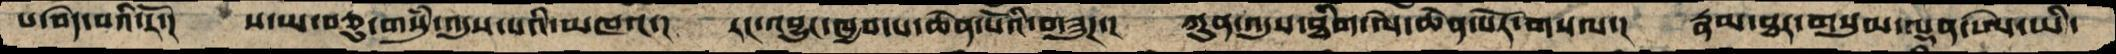པ་བདེ་བའི་རོ་།  ས་ཡ་བཅུ་གསུཾ་འདུས་པའི་མཁའ་།  རང་འབྱུང་ཁྱབ་པ་ཆེན་པོའི་གཟུཌ་།  ཀུན་འདུས་ཐིག་ལེ་ཆེན་པོར་གསལ་།  རྣམ་ཐར་གསུམ་ལྡན་ཨེ་ཡི་
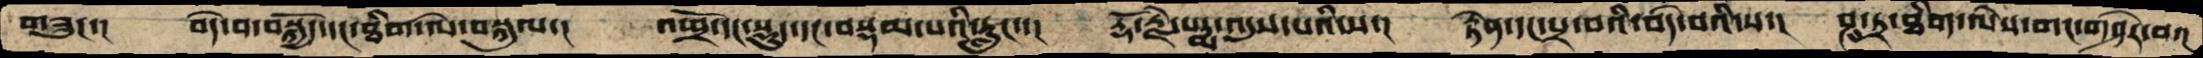གཟུང་།  བདེ་བ་བསྐྱོད་དང་ཐིག་ལེ་བསྐུལ་།  འཕྲོ་དང་སྡུད་དང་བསྡམ་པའི་རླུང་།  རྡོ་རྗེ་པདྨ་འདུས་པའི་ས་།  རྟེན་དང་པྲ་བའི་བདེ་བའི་ས་།  ཤུ་ཏྲ་ཐིག་ལེས་གང་གཤེར་བ་།
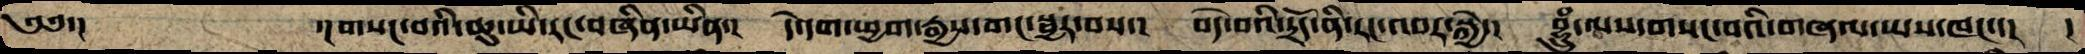༄༅་།          ་།གསང་བའི་ཆུ་ཡི་རང་བཞིན་ཡིན་།  དེ་དག་ཕྱག་རྒྱས་གང་སྦྱར་བས་།  བདེ་བའི་དྲོད་ནི་རབ་འབར་སྐྱེ་།  བྷྲུཾ་ལས་གསང་བའི་གཞལ་ཡས་ཁང་་།  །
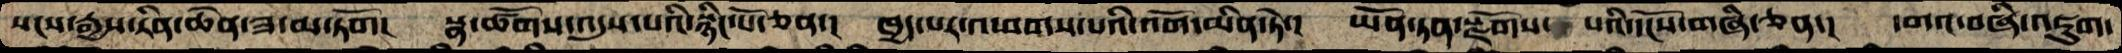སངས་རྒྱས་རིན་ཆེན་ཟ་མ་ཏོག།  སྣ་ཚོགས་འདུས་པའི་སྙིང་པོ་ཅན་།  ཁྱད་པར་འཕགས་པའི་འོག་མིན་ཏེ་།  ཡོན་ཏན་སྫོགས་ པའི་དངོས་གཞི་ཅན་།  དགའ་བཞི་འཇུག་
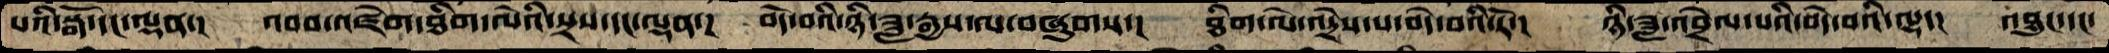པའི་སྒོ་དང་ལྡན་།  འབབ་འཛེག་ཐིག་ལེའི་སྲས་དང་ལྡན་།  བདེ་བའི་ཉི་ཟླ་རྒྱས་ལ་བཞུགས་།  ཐིག་ལེ་འདྲེས་པ་བདེ་བའི་རོ་།  ཉི་ཟླ་འབྲེལ་པའི་བདེ་བའི་ལྷ་།  འབྱུང་དང་
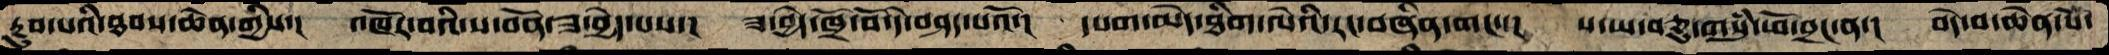རྔུབ་པའི་ཐབས་ཆེན་གྱིས་།  འཁོར་བའི་ས་བོན་ཟ་བྱེད་པས་།  ཟ་བྱེད་ཁྲོ་བོ་དེ་བཤད་པའོ་།  དཔག་མེད་ཐིག་ལེའི་རང་བཞིན་གང་་།  ས་ཡ་བཅུ་གསུཾ་ཕོ་བྲང་ན་།  བདེ་བ་ཆེན་པོ་
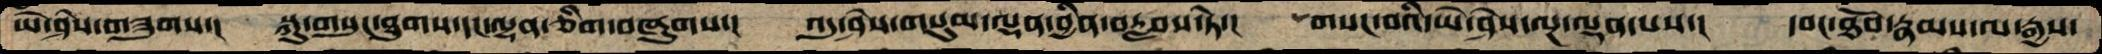ཡེ་ཤེས་གཟུགས་།  སྐུ་གསུང་ཐུགས་དང་ལྷན་ཅིག་བཞུགས་།  འདུ་ཤེས་གསུམ་ལྡན་བྱིན་བརླབས་ཏེ་།  གསང་བའི་ཡེ་ཤེས་ལྔ་ལྡན་པས་།  དབང་ཐོབ་རྣམས་ལ་རྒྱས་
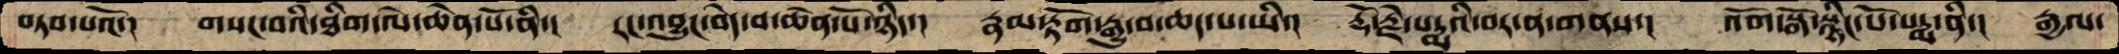བཏབ་པའོ་།  གསང་བའི་ཐིག་ལེ་ཆེན་པོ་ནི་།  རང་འབྱུང་བདེ་བ་ཆེན་པོ་ཉིད་།  རྣམ་རྟོག་རྒྱུ་བ་ཆད་པ་ཡི་།  རྡོ་རྗེ་པདྨའི་བར་ན་གནས་།  འོག་སྒོ་སྙིང་པོ་པདྨ་ནི་།  རྒྱལ་
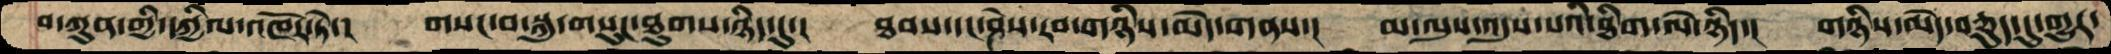བ་ཀུན་གྱི་དཀྱིལ་འཁོར་ཏེ་།  གསང་བ་སྐུ་གསུང་ཐུགས་ཉིད་དུ་། ཐབས་དང་ཤེས་རབ་གཉིས་མེད་གནས་།  མ་ལུས་འདུས་པའི་ཐིག་ལེ་ཉིད་།   གཉིས་མེད་བཅུད་དུ་གྱུར་
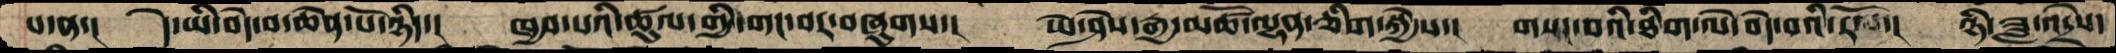པ་ན་།  དེ་ཡི་བདེ་བ་ཆེན་པོ་ཉིད་།  ཁྱབ་པའི་ཚུལ་གྱི་གང་བར་བཞུགས་།  ཡེ་ཤེས་རྒྱ་མཚོ་ལྷན་ཅིག་སྐྱེས་།  གསང་བའི་ཐིག་ལེ་བདེ་བའི་རོལ་།  ཉི་ཟླ་འདྲེས་
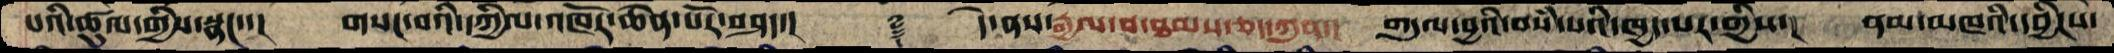པའི་ཚུལ་གྱིས་སྣང་་།  གསང་བའི་དཀྱིལ་འཁོར་ཆེན་པོར་བཤད་།  ࿑  དེ་ནས་རྒྱལ་བ་ཐམས་ཅད་ཀུན་།  གདུལ་བྱའི་བསཾ་པའི་ཁྱད་པར་གྱིས་།  ནམ་མཁའི་དབྱིངས་
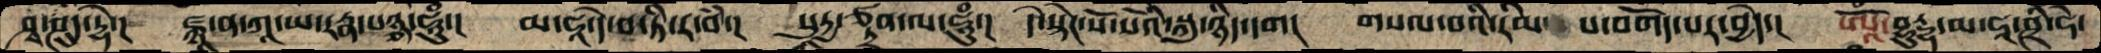ཤྭ་ཤུ་དྷེ་།  ཛྙཱ་ན་ཀཱ་ཡ་རཏྣ་པཉྩ་ཧཱུཾ་།  མ་ཧཱ་དེ་པ་ཏི་ར་བཾ་།  སུརྱ་ཙནྟྲ་ལ་ཧཱུཾ་།  དེ་སྟེང་སོ་སོའི་སྐུ་ཉིད་དག།  གསལ་བའི་རིམ་  པ་བགོད་པར་བྱེད་།  ཨཱོཾ་བྷུདྡྷ་མ་ཧཱ་ཤྲི་ཧེ་
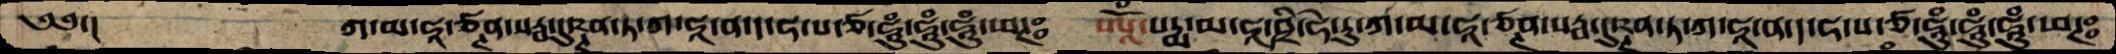༄༅་།   ཀ་མ་ཧཱ་ཙནྚ་སརྦ་དུཥྚན་ཏ་ག་ཧཱ་ན་ད་ཧ་པ་ཙ་ཧཱུཾ་ཧཱུཾ་ཧཱུཾ་ཕཊཿ  ཨཱོཾ་པདྨ་མ་ཧཱ་ཤྲི་ཧེ་རུ་ཀ་མ་ཧཱ་ཙནྚ་སརྦ་དུཥྚན་ཏ་ཀ་ཧཱ་ན་ད་ཧ་པ་ཙ་ཧཱུཾ་ཧཱུཾ་ཧཱུཾ་ཕཊཿ
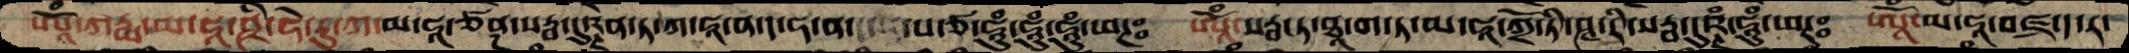ཨཱོཾ་ཀརྨ་མ་ཧཱ་ཤྲི་ཧེ་རུ་ཀ་མ་ཧཱ་ཙནྜ་སརྦ་དུཥྚན་ཏ་ཀ་ཧཱ་ན་ད་ཧ་ན་  པ་ཙ་ཧཱུཾ་ཧཱུཾ་ཧཱུཾ་ཕཊཿ  ཨཱོཾ་སརྦ་ཏ་ཐཱ་ག་ཏ་མ་ཧཱ་ཀྲོ་ཏི་ཤྭ་རི་སརྦ་དུཥྚཾ་ཧཱུཾ་ཕཊཿ  ཨཱོཾ་མ་ཧཱ་བཛྲ་ད་ར་
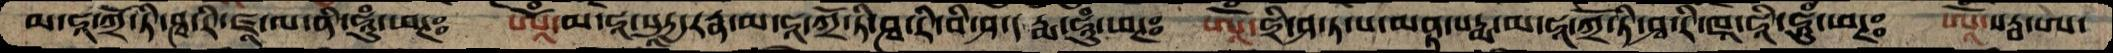མ་ཧཱ་ཀྲོ་ཏི་ཤྭ་རི་ཛཱ་ལ་ནི་ཧཱུཾ་ཕཊཿ  ཨཱོཾ་མ་ཧཱ་སུརྱ་རཏྣ་མ་ཧཱ་ཀྲོ་ཏི་ཤྭ་རི་བི་ཤ་ད རྨ་ཧཱུཾ་ཕཊཿ  ཨཱོཾ་ཧྲི་ཤ་ཏ་ས་མནྟ་པདྨ་མ་ཧཱ་ཀྲོ་ཏི་ཤྭ་རི་ཁཱ་ཧཱི་ཧཱུཾ་ཕཊཿ  ཨཱོཾ་སརྦ་ཨ་
